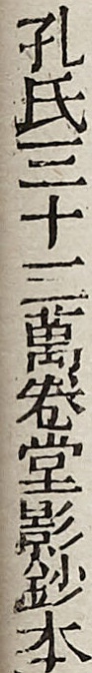孔氏三十三萬卷堂影鈔本
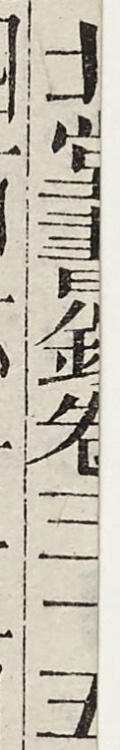北堂書鈔卷第三十五
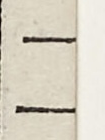二
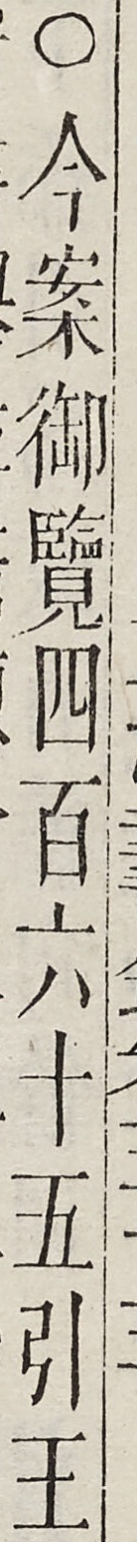○今案御覽四百六十五引王
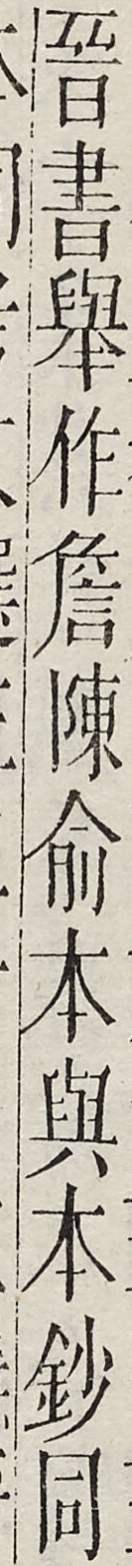晉書舉作詹陳俞本與本鈔同
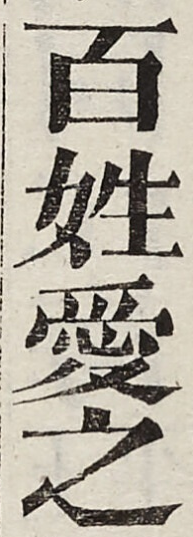百姓愛之
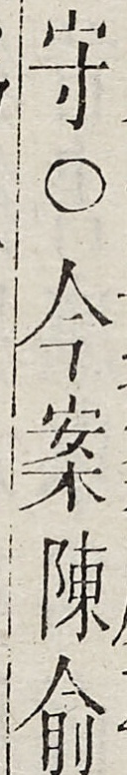守○今案陳俞
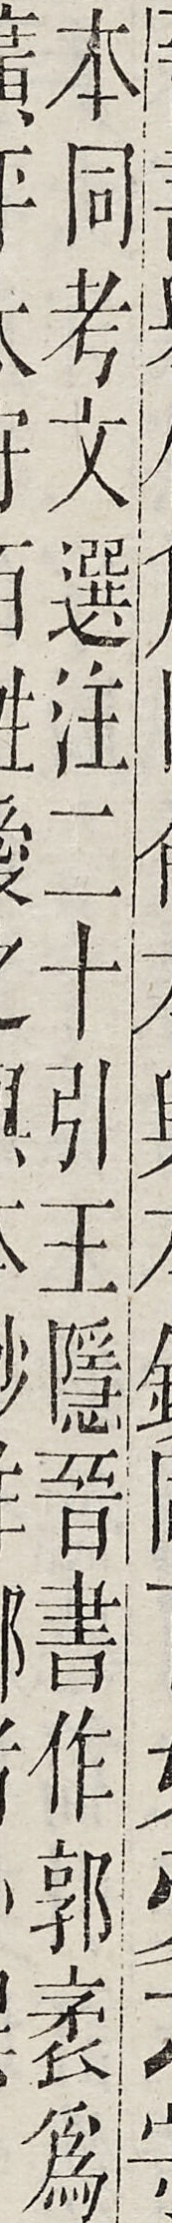本同考文選注二十引王隱晉書作郭袤為
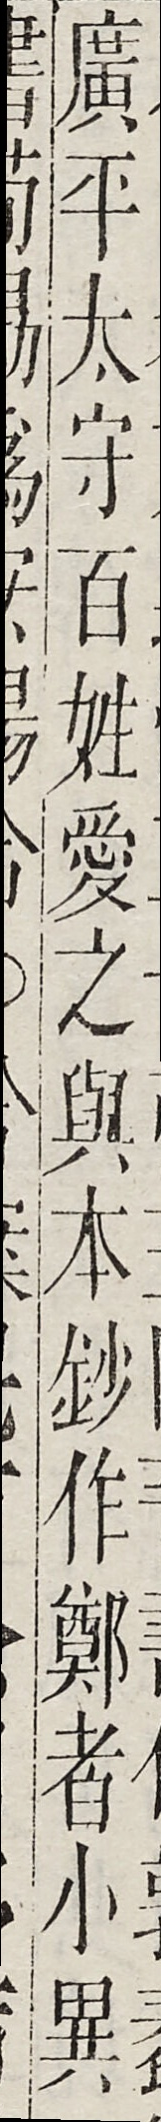廣平太守百姓愛之與本鈔作鄭者小異
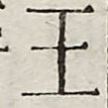王
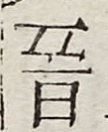晉
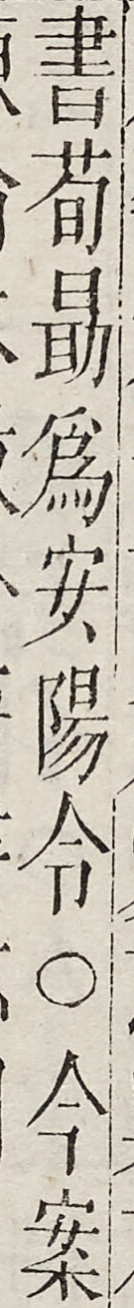書荀勖為安陽令○今案
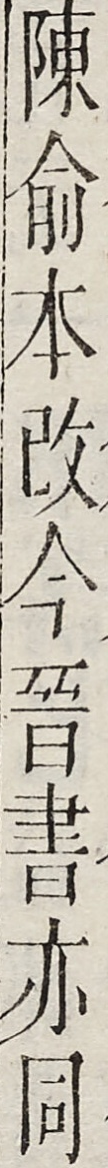陳俞本改今晉書亦同
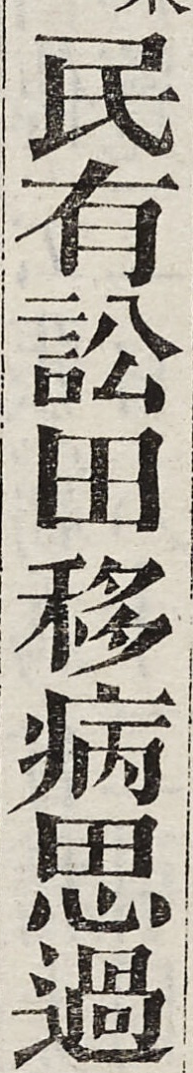民有訟田移病思過
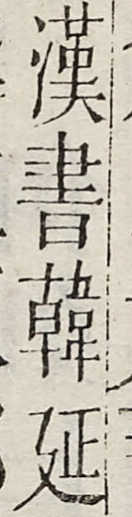漢書韓延
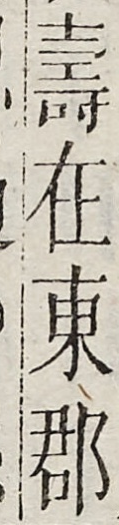壽在東郡
